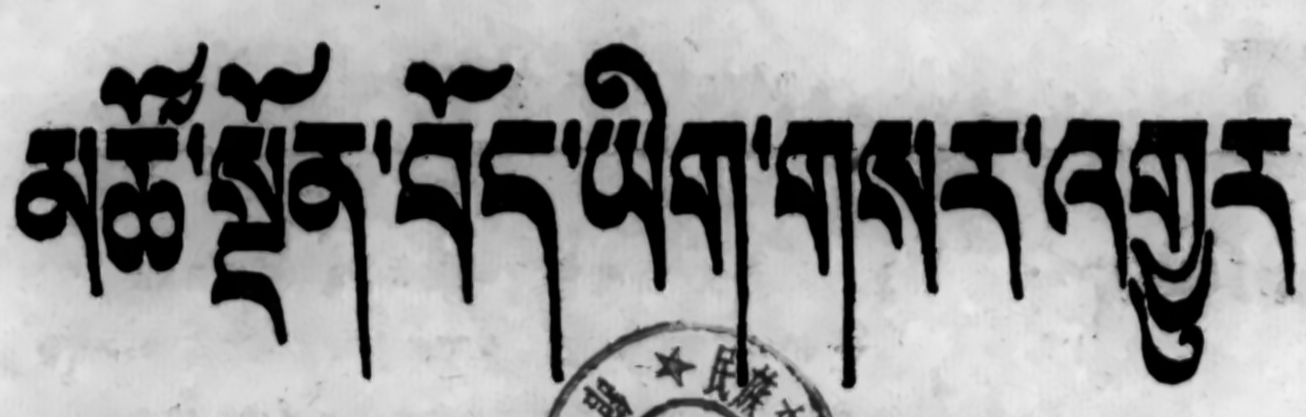མཚོ་སྔོན་བོད་ཡིག་གསར་འགྱུར
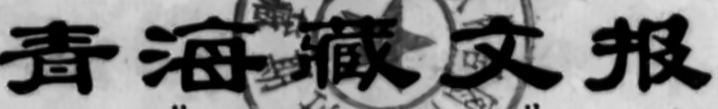青海藏文报
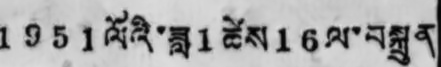1951ལོའི་ཟླ1ཚེས16ལ་བསྐྲུན
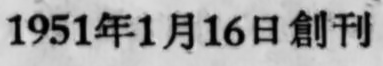1951年1月16日創刊
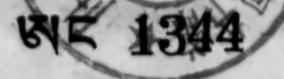ཨང 1344
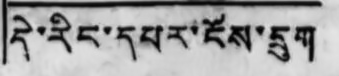དེ་རིང་དཔར་ངོས་དྲུག
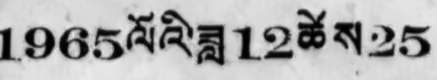1965ལོའི་ཟླ12ཚེས25
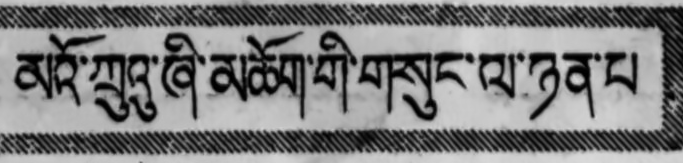མའོ་ཀྲུ་ཞིན་ཡོ་གི་གསུང་ལ་ཉན་པ།
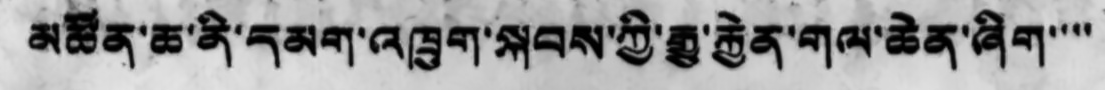མཚོན་ཆ་ནི་དམག་འཁྲུག་སྐབས་ཀྱི་ཟྒྱ་རྐྱེན་གལ་ཆེན་ཞིག་་་་
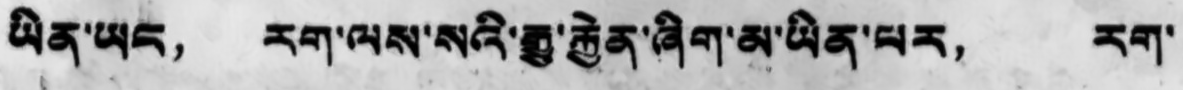ཡིན་ཡང， རག་ལས་སའི་སྒྱ་རྐྱེན་ཞིག་མུ་ཡིན་པར， རག་
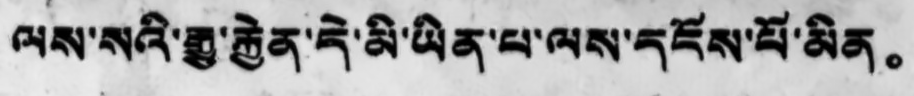ལས་སའི་ཟླྱ་རྐྱེན་དེ་མི་ཡིན་པ་ལས་དངོས་པོ་མིན。
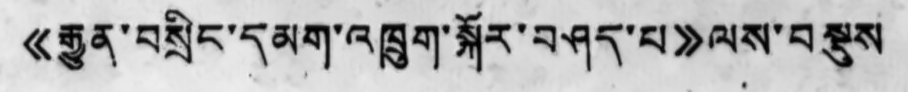《རྒྱུན་བསྲིང་དམག་འཁྲུག་སྐོར་བཤད་པ》ལས་བསྡུས
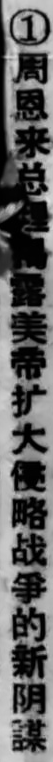①周恩来总理揭露美帝扩大侵略战爭的新阴謀
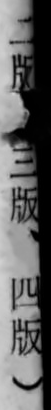二版、三版、四版）
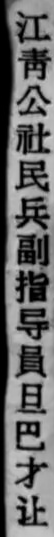江靑公社民兵副指导員旦巴才让
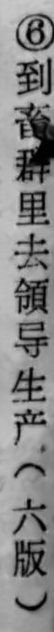⑥到畜群里去領导生产（六版）
